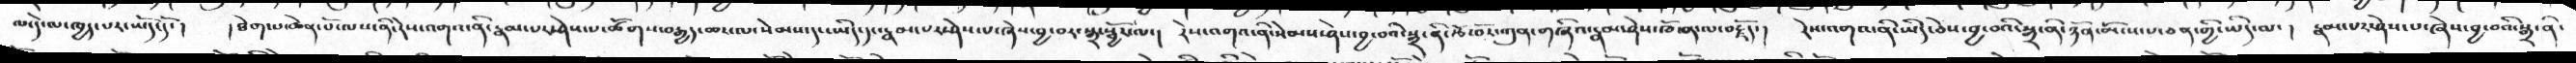ལ་དེ་ལ་ཁྱད་པར་ཡོད་དོ་།   ། ཐེག་པ་ཆེན་པོ་ལས་ནི་རེས་འགའ་ནི་རྣམ་པར་ཤེས་པ་ཚོགས་བརྒྱད་ཆར་ལ་སེམས་དང་ཡིད་དང་རྣམ་པར་ཤེས་པ་ཞེས་བྱ་བར་སྒྲ་སྦྱོར་ལ་།   རེས་འགའ་ནི་སེམས་ཤེས་བྱ་བའི་སྒྲ་ནི་རྩོ་བོར་ཀུན་གཞིའ་རྣམ་ཤེས་ཁོ་ན་ལ་བརྗོད་།   རེས་འགའ་ནི་ཡིད་ཅེས་བྱ་བའི་སྒྲ་ནི་ཉོན་མོངས་པ་ཅན་གྱི་ཡིད་ལ་།  རྣམ་པར་ཤེས་པ་ཞེས་བྱ་བའི་སྒྲ་ནི་
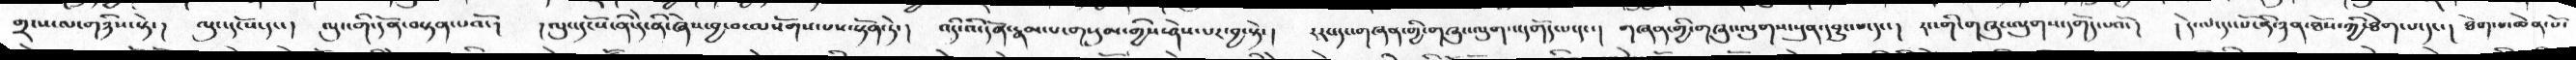གྲངས་ལ་གཉིས་སྟེ་།    ལུང་དངོས་དང་།   ལུང་གི་དོན་བསྟན་པའོ་།  །ལུང་དངོས་ནི་དེ་ནི་ཞེས་བྱ་བ་ལསོགས་པས་སྟོན་ཏེ་།   འདི་འི་དོན་རྣམ་པ་གསུམ་གྱིས་ཤེས་པར་བྱ་སྟེ་།   །རང་དང་གཞན་གྱི་གཞུང་ལུགས་དགོད་པ་དང་།  གཞན་གྱི་གཞུང་ལུགས་སུན་དབྱུང་པ་དང་།   རང་གི་གཞུང་ལུགས་དགོད་པའོ་།  ། དེ་ལ་དང་པོ་ནི་ཉན་ཐོས་ཀྱི་ཐེག་པ་དང་།  ཐེག་པ་ཆེན་པོ་
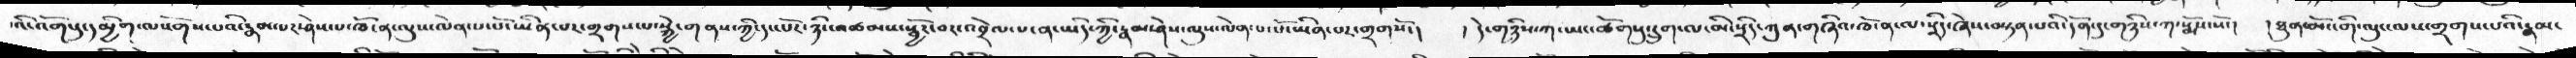་འི་འོག་དུ་དམྱིག་ལསོགས་པའི་རྣམ་པར་ཤེས་པ་ཁོ་ན་ལུས་ལེན་པ་པོ་ཡིན་པར་གྲགས་པ་སྐྱེ་གནས་ཀྱི་དང་པོར་ཉིང་འཚམས་སྦྱོར་བར་འབྲེལ་པ་ན་ཡིད་ཀྱི་རྣམ་ཤེས་ལུས་ལེན་པ་པོ་ཡིན་པར་གྲགསོ་།  ། དེ་གཉིས་ཀ་ཡང་ཚོགསུ་དྲུག་ལ་མི་སྲིད་ཀུན་གཞིའ་ཁོ་ན་ལ་སྲིད་ཞེས་བསྟན་པའི་དོན་དུ་གཉིས་ཀ་སྨོས་སོ་།   ། ཐུན་མོང་གི་ལུང་ལས་གྲགས་པའི་རྣམ་
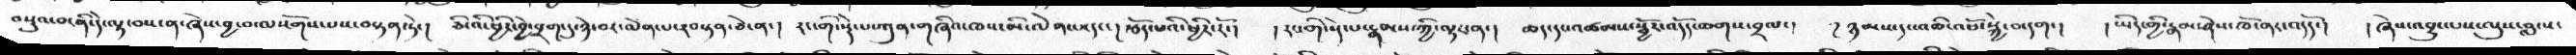བསྡུའ་བ་ནི་དེ་ལྟ་བས་ན་ཞེས་བྱ་བ་ལསོགས་པས་བསྟན་ཏེ་།  ཅི་འི་ཕྱིར་བྱེ་བྲག་དུ་ཉེ་བར་ལེན་པ་རབསྟན་ཅེ་ན་།  རང་གི་སྡེ་པ་ཀུན་གཞིའ་ཁས་མི་ལེན་པ་དང་། རྩོད་པའི་ཕྱིར་རོ་།  །རང་གི་སྡེ་པ་རྣམས་ཀྱི་ལྟར་ན་།  ཚད་དང་འཚམས་སྦྱོར་འདོད་ཆགས་བྲལ་།  །ཉམས་དང་འཆི་འཕོ་སྐྱེ་བ་དག་།  །ཡིདགྱི་རྣམ་ཤེས་ཁོ་ནར་འདོད་།  ། ཞེས་འབྱུང་པས་ལུས་བླངས་
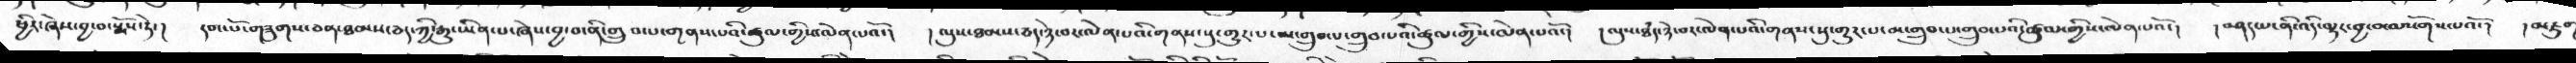ཕྱིར་ཞེས་བྱ་བ་སྨོས་ཏེ་།  དབང་པོ་གཟུགས་ཅན་ཐམས་ཅད་ཀྱི་རྒྱུ་ཡིན་པ་ཞེས་བྱ་བ་ནི་གྲུབ་པ་གནས་པའི་ཚུལ་གྱིས་ལེན་པའོ་།  །ལུས་ཐམས་ཅད་ཉེ་བར་ལེན་པའི་གནས་སུ་གྱུར་པ་མ་གྲུབ་པ་གྲུབ་པའི་ཚུལ་གྱིས་ལེན་པའོ་།  །ལུས་ཐདཾ་ཉེ་བར་ལེན་པའི་གནས་སུ་གྱུར་པ་མ་གྲུབ་པ་གྲུབ་པའི་ཚུལ་གྱིས་ལེན་པའོ་།  །བཤད་པ་ནི་འདི་ལྟར་བྱ་བ་ལསོགས་པའོ་།  །མཇུག
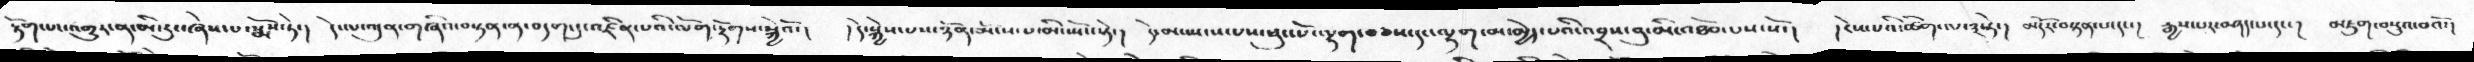རྟོག་པར་འགྱུར་ན་མི་རུང་ཞེས་པ་སྨོས་ཏེ་།  དེ་ལ་ཀུན་གཞིའ་བསྟན་ན་བདག་དུ་འཛིན་པའི་ལོག་རྟོགས་སྐྱེའོ་།   །དེ་སྐྱེས་པས་ཉོན་མོངས་པ་མི་ཡོང་སྟེ་།  དེ་མ་སྤངས་པས་ཕུང་པོ་ལྷག་བཅས་དང་ལྷག་མ་མྱེད་པའི་འབྲས་བུ་མི་འཐོབ་པས་སོ་།  །ངེས་པའི་ཚིག་ལ་༣་ཏེ་།  མདོར་བསྟན་པ་དང་།  རྒྱས་པར་བཤད་པ་དང་།   མཇུག་བསྡུའ་བའོ་།
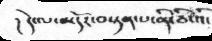། དེ་ལ་མདོར་བསྟན་པ་ནི་ཅི་འི་
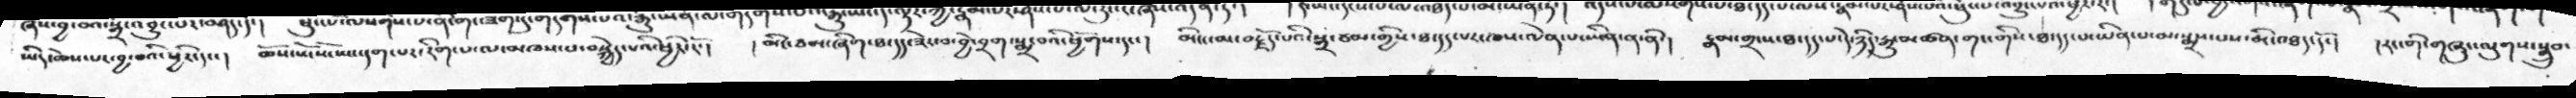ཡིད་ཆེས་པར་བྱ་བའི་ཕྱིར་དང་།   ཆོས་སོ་སོ་ཡང་དག་པར་རིག་པ་ལ་མཁས་པ་བསྐྱེད་པའི་ཕྱིར་རོ་།  །མིང་ཙམ་ཞིག་ཐ་དད་ཟེར་བ་བྱེ་བྲག་སྨྲ་བའི་ཕྱོགས་དང་།  མིང་ངམ་བརྗོད་པའི་སྒྲ་ཙམ་གྱིས་ཐ་དད་པར་ཁས་ལེན་པ་ཡིན་ན་ནི་།  རྣམ་གྲངས་ཐ་དད་པ་དེ་ཉིད་རྒྱུ་མཚན་གང་གིས་ཐ་དད་པ་ཡིན་པ་མ་སྨྲས་པས་མི་འཐད་དོ་།  །རང་གི་གཞུང་ལུགས་སྒྲུབ་
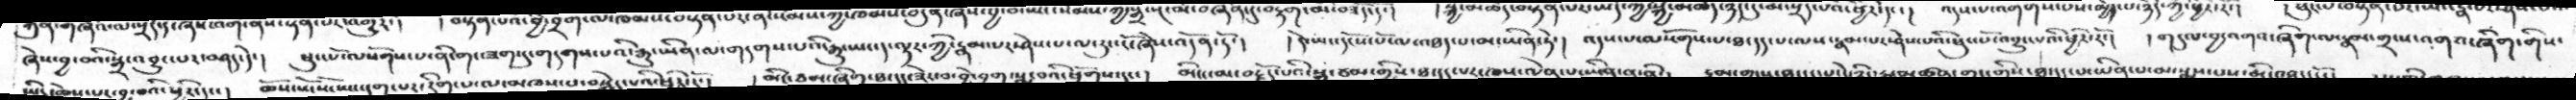ཞེས་བྱ་བའི་སྒྲ་འབྱུང་པར་བཤད་དེ་།  ཕུང་པོ་ལསོགས་པ་ནི་གང་ཟག་དུ་གདགས་པའི་རྒྱུ་ཡིན་ལ་གདགས་པ་པའི་རྒྱུ་ཡང་ད་ལྟར་ཀྱི་རྣམ་པར་ཤེས་པ་ལ་རུང་ངོ་ཞེས་འདོན་ཏོ་།  །དེ་ཡང་དངོས་པོ་ལ་འཐད་པ་མ་ཡིན་ཏེ་།  འདས་པ་ལསོགས་པ་ཐ་དད་པ་ལས་རྣམ་པར་ཤེས་པའི་ཕུང་པོ་འབྱུང་པའི་ཕྱིར་རོ་།  །གདུལ་བྱ་འགའ་ཞིག་ལ་རྣམ་གྲངས་འགའ་ཞིག་གིས་
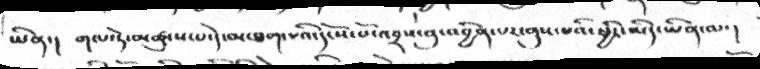ཡིན་།  གལ་ཏེ་མཚུངས་པ་དེ་མ་ཐག་པའི་དེ་སོ་སོ་འབྲས་བུ་འབྱིན་པར་ནུས་པའི་ཕྱིར་ཡིད་ཡིན་ལ་།
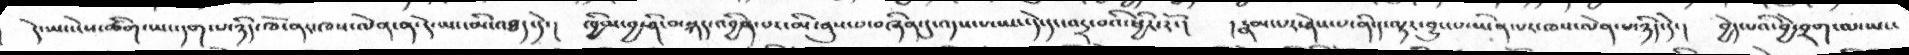དེ་ཡང་ངེས་ཚིག་ཡང་དག་པ་ཉིད་ཁོ་ནར་ཁས་ལེན་ན་དེ་ཡང་མི་འཐད་དེ་།    ཁྱིམ་བྱ་ཤི་བ་སྐད་འབྱིན་པར་མི་ནུས་པ་བཞིན་དུ་འདས་པ་ཡང་དེ་དང་འདྲ་བའི་ཕྱིར་རོ་།  ། རྣམ་པར་ཤེས་པ་ནི་ད་ལྟར་བྱུང་པ་ཡིན་པར་ཁས་ལེན་པ་ཉིད་དེ་།   བྱེད་པའི་བྱེ་བྲག་ལ་ཡང་
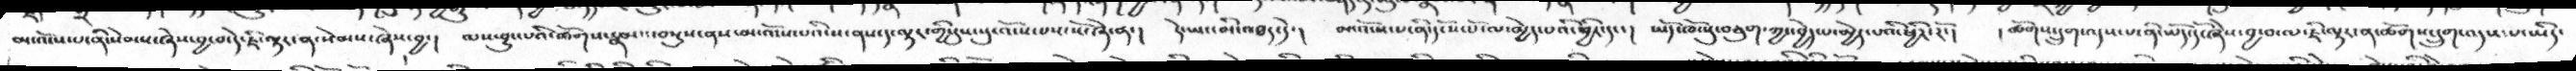མ་འོངས་པ་ནི་སེམས་ཞེས་བྱ་བ་དེ་ཇི་ལྟར་ན་སེམས་ཞེས་བྱ་།  ལས་བྱུང་པའི་ཚོགས་རྣམས་དང་བསྡུས་ནས་མ་འོངས་པའི་ས་ནས་ད་ལྟར་གྱི་དུས་སུ་འོངས་པས་སོ་ཞེ་ན་།   དེ་ཡང་མི་འཐད་དེ་།  མ་འོངས་པ་ནི་དངོས་པོ་ལ་མྱེད་པའི་ཕྱིར་དང་།  ཡོད་ཁོངསུ་བཅུག་ཀྱང་བྱེད་པ་མྱེད་པའི་ཕྱིར་རོ་།    ། ཚོགས་དྲུག་འདས་པ་ནི་ཡོད་དོ་ཞེས་བྱ་བ་ལ་ཇི་ལྟར་ན་ཚོགས་དྲུག་འདས་པ་ཡིད་
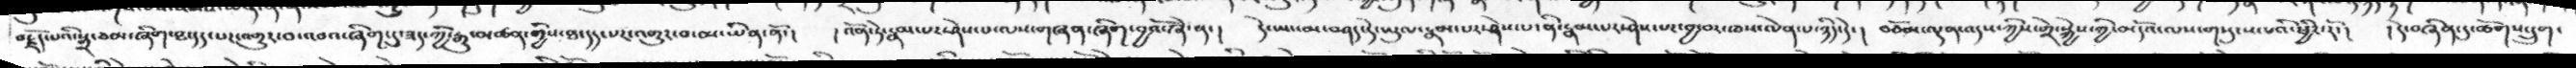བརྗོད་པའི་སྒྲ་ཙམ་ཞིག་ཐ་དད་པར་འགྱུར་བ་འབའ་ཞིག་དུ་ཟད་ཀྱི་རྒྱུ་མཚན་གྱིས་ཐ་དད་པར་འགྱུར་བ་མ་ཡིན་ནོ་།   ། འོན་ཏེ་རྣམ་པར་ཤེས་པ་ལས་གཞན་ཞིག་བྱའོ་ཞེ་ན་།  དེ་ཡང་མ་བཤད་དེ་ཡུལ་རྣམ་པར་ཤེས་པ་ནི་རྣམ་པར་ཤེས་པར་བྱ་བར་ཁས་ལེན་པ་ཉིད་དེ་།   བཅོམ་ལྡན་འདས་ཀྱིས་གྲེ་སྐྱེས་ཀྱི་མདོའ་ལས་གསུངས་པའི་ཕྱིར་རོ་།   ། དེ་བཞིན་དུ་ཚོགས་དྲུག་
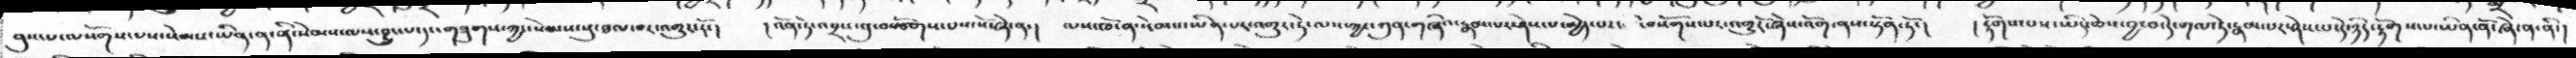ནུས་པ་ལསོགས་པས་སེམས་ཡིན་ན་ནི་སེམས་ལས་བྱུང་པ་དང་གཟུགས་ཀྱང་སེམས་སུ་ཐལ་བར་འགྱུར་རོ་།  ། འོན་ཏེ་འབྲས་བུ་བསྩོགས་པས་སོ་ཞེ་ན་།  ལས་ཁོ་ན་སེམས་ཡིན་པར་འགྱུར་ཏེ་ལས་ཀྱང་ཀུན་གཞིའ་རྣམ་པར་ཤེས་པ་མྱེད་པར་  ་བསོགས་པར་འགྱུརོ་ཞེས་འོག་ནས་སྟོན་ཏོ་།  ། རྟོགས་པས་ཡིད་ཆེས་བྱ་བ་དེ་གལ་ཏེ་རྣམ་པར་ཤེས་པ་དེ་ཉིད་རྟོགས་པ་ཡིན་ནོ་ཞེ་ན་ནི་།
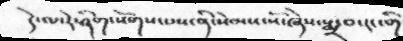དེ་ལ་རེ་ཞིག་སོགས་པས་ནི་སེམས་སོ་ཞེས་སྨྲ་བ་རང་གི
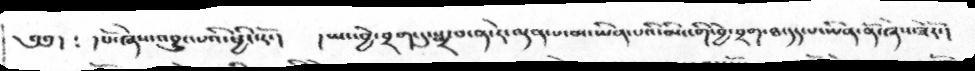༄༅།  ༴  །པོ་ཞེས་འབྱུང་པའི་ཕྱིར་རོ་།  །ཡང་བྱེ་བྲག་དུ་སྨྲ་བ་ན་རེ་ལྡན་པ་མ་ཡིན་པའི་མིང་གི་བྱེ་བྲག་ཐ་དད་པ་ཡིན་ནོ་ཞེས་ཟེརོ་།
